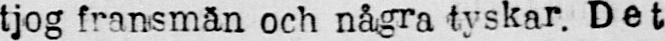tjog fransmän och några tyskar. Det
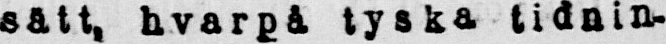sätt, hvarpå tyska tidnin-
